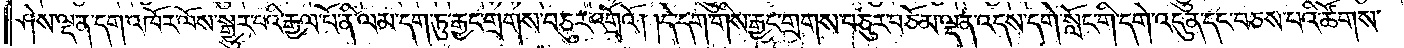ཤེས་ལྡན་དག་འཁོར་ལོས་སྒྱུར་བའི་རྒྱལ་པོ་ནི་ལམ་དག་ཏུ་རྒྱང་གྲགས་བཅུར་འགྲོའོ། །དེ་དག་གིས་རྒྱང་གྲགས་བཅུར་བཅོམ་ལྡན་འདས་དགེ་སློང་གི་དགེ་འདུན་དང་བཅས་པའི་ཚོགས་
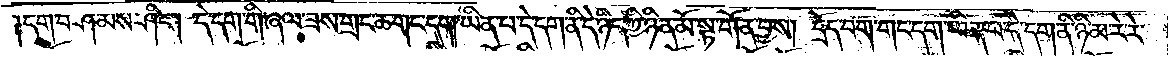དག་བཤམས་ཤིང༌། དེ་དག་གི་ཞལ་ཟས་གྲང་ཆ་གང་དག་ཡིན་པ་དེ་དག་ནི་དེ་ཉིད་ཀྱི་ཉིན་མོ་སྟ་གོན་བྱས། དྲོད་བག་གང་དག་ཡིན་པ་དེ་དག་ནི་ཉི་མ་རེ་རེ་
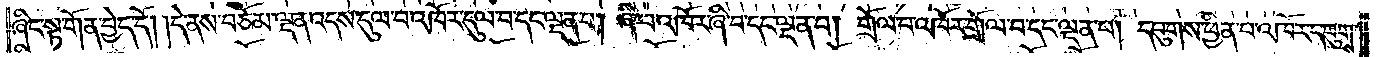ཞིང་སྟ་གོན་བྱེད་དེ། །དེ་ནས་བཅོམ་ལྡན་འདས་དུལ་བ་འཁོར་དུལ་བ་དང་ལྡན་པ། ཞི་བ་འཁོར་ཞི་བ་དང་ལྡན་པ། གྲོལ་བ་འཁོར་གྲོལ་བ་དང་ལྡན་པ། དབུགས་ཕྱིན་པ་འཁོར་དབུགས་
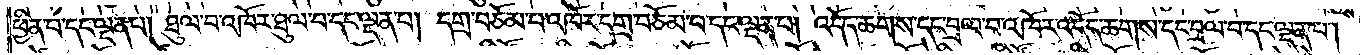ཕྱིན་པ་དང་ལྡན་པ། ཐུལ་བ་འཁོར་ཐུལ་བ་དང་ལྡན་པ། དགྲ་བཅོམ་པ་འཁོར་དགྲ་བཅོམ་པ་དང་ལྡན་པ། འདོད་ཆགས་དང་བྲལ་བ་འཁོར་འདོད་ཆགས་དང་བྲལ་བ་དང་ལྡན་པ།
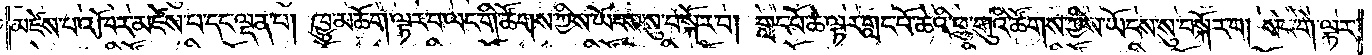མཛེས་པ་འཁོར་མཛེས་པ་དང་ལྡན་པ། ཁྱུ་མཆོག་ལྟར་བ་ལང་གི་ཚོགས་ཀྱིས་ཡོངས་སུ་བསྐོར་བ། གླང་པོ་ཆེ་ལྟར་གླང་པོ་ཆེའི་ཕྲུ་གུའི་ཚོགས་ཀྱིས་ཡོངས་སུ་བསྐོར་བ། སེང་གེ་ལྟར་
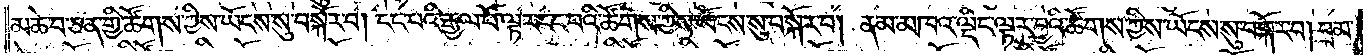མཆེ་བ་ཅན་གྱི་ཚོགས་ཀྱིས་ཡོངས་སུ་བསྐོར་བ། ངང་པའི་རྒྱལ་པོ་ལྟར་ངང་པའི་ཚོགས་ཀྱིས་ཡོངས་སུ་བསྐོར་བ། ནམ་མཁའ་ལྡིང་ལྟར་བྱའི་ཚོགས་ཀྱིས་ཡོངས་སུ་བསྐོར་བ། བྲམ་
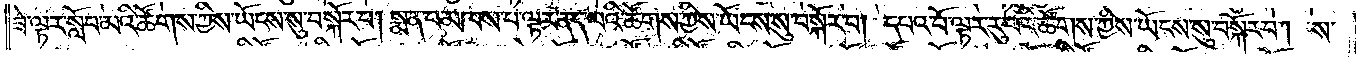ཟེ་ལྟར་སློབ་མའི་ཚོགས་ཀྱིས་ཡོངས་སུ་བསྐོར་བ། སྨན་པ་མཁས་པ་ལྟར་ནད་པའི་ཚོགས་ཀྱིས་ཡོངས་སུ་བསྐོར་བ། དཔའ་བོ་ལྟར་རུ་བའི་ཚོགས་ཀྱིས་ཡོངས་སུ་བསྐོར་བ། ས་
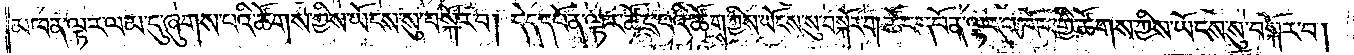མཁན་ལྟར་ལམ་དུ་ཞུགས་པའི་ཚོགས་ཀྱིས་ཡོངས་སུ་བསྐོར་བ། དེད་དཔོན་ལྟར་ཚོང་པའི་ཚོགས་ཀྱིས་ཡོངས་སུ་བསྐོར་བ། ཚོང་དཔོན་ལྟར་འཁོར་གྱི་ཚོགས་ཀྱིས་ཡོངས་སུ་བསྐོར་བ།
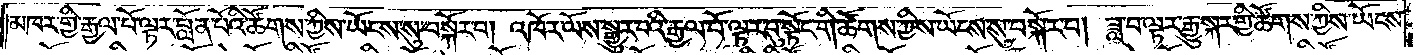མཁར་གྱི་རྒྱལ་པོ་ལྟར་བློན་པོའི་ཚོགས་ཀྱིས་ཡོངས་སུ་བསྐོར་བ། འཁོར་ལོས་སྒྱུར་བའི་རྒྱལ་པོ་ལྟར་བུ་སྟོང་གི་ཚོགས་ཀྱིས་ཡོངས་སུ་བསྐོར་བ། ཟླ་བ་ལྟར་རྒྱུ་སྐར་གྱི་ཚོགས་ཀྱིས་ཡོངས་
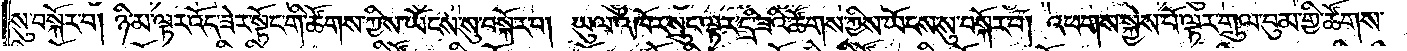སུ་བསྐོར་བ། ཉི་མ་ལྟར་འོད་ཟེར་སྟོང་གི་ཚོགས་ཀྱིས་ཡོངས་སུ་བསྐོར་བ། ཡུལ་འཁོར་སྲུང་ལྟར་དྲི་ཟའི་ཚོགས་ཀྱིས་ཡོངས་སུ་བསྐོར་བ། འཕགས་སྐྱེས་པོ་ལྟར་གྲུལ་བུམ་གྱི་ཚོགས་
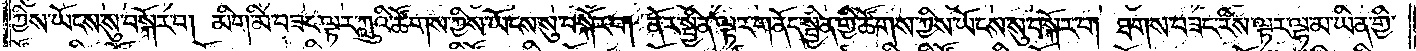ཀྱིས་ཡོངས་སུ་བསྐོར་བ། མིག་མི་བཟང་ལྟར་ཀླུའི་ཚོགས་ཀྱིས་ཡོངས་སུ་བསྐོར་བ། ནོར་སྦྱིན་ལྟར་གནོད་སྦྱིན་གྱི་ཚོགས་ཀྱིས་ཡོངས་སུ་བསྐོར་བ། ཐགས་བཟང་རིས་ལྟར་ལྷ་མ་ཡིན་གྱི་
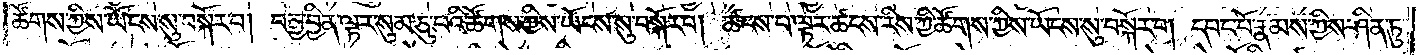ཚོགས་ཀྱིས་ཡོངས་སུ་བསྐོར་བ། བརྒྱ་བྱིན་ལྟར་སུམ་ཅུ་པའི་ཚོགས་ཀྱིས་ཡོངས་སུ་བསྐོར་བ། ཚངས་པ་ལྟར་ཚངས་པ་རིས་ཀྱིས་ཚོགས་ཀྱིས་ཡོངས་སུ་བསྐོར་བ། དབང་པོ་རྣམས་ཀྱིས་ཤིན་ཏུ་
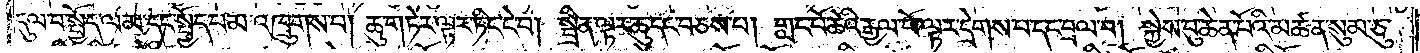དུལ་བ་སྤྱོད་ལམ་དང་སྤྱོད་པ་མ་འཁྲུགས་པ། ཆུ་གཏེར་ལྟར་ཏིང་ངེ་བ། སྤྲིན་ལྟར་ཆུ་དང་བཅས་པ། གླང་པོ་ཆེའི་རྒྱལ་པོ་ལྟར་དྲེགས་པ་དང་བྲལ་བ། སྐྱེས་བུ་ཆེན་པོའི་མཚན་སུམ་ཅུ་
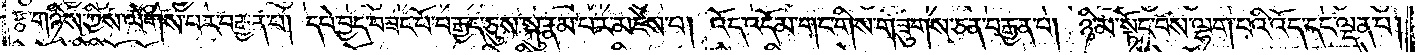རྩ་གཉིས་ཀྱིས་ལེགས་པར་བརྒྱན་པ། དཔེ་བྱད་བཟང་པོ་བརྒྱད་ཅུས་སྐུ་རྣམ་པར་མཛེས་པ། འོད་འདོམ་གང་གིས་གཟུགས་ཅན་བརྒྱན་པ། ཉི་མ་སྟོང་བས་ལྷག་པའི་འོད་དང་ལྡན་པ།
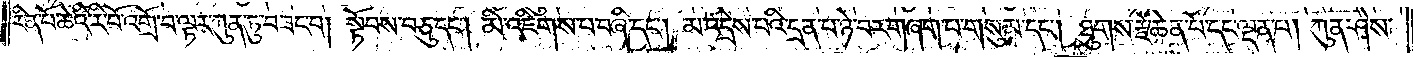རིན་པོ་ཆེའི་རི་བོ་འགྲོ་བ་ལྟར་ཀུན་ཏུ་བཟང་བ། སྟོབས་བཅུ་དང༌། མི་འཇིགས་པ་བཞི་དང༌། མ་འདྲེས་པའི་དྲན་པ་ཉེ་བར་གཞག་པ་གསུམ་དང༌། ཐུགས་རྗེ་ཆེན་པོ་དང་ལྡན་པ། ཀུན་ཤེས་
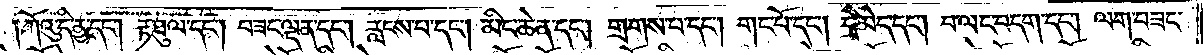ཀོའུ་དི་ནྱ་དང༌། རྟ་ཐུལ་དང༌། བཟང་ལྡན་དང༌། རླངས་པ་དང༌། མིང་ཆེན་དང༌། གྲགས་པ་དང༌། གང་བོ་དང༌། དྲི་མེད་དང༌། བ་ལང་བདག་དང༌། ལག་བཟང་།
